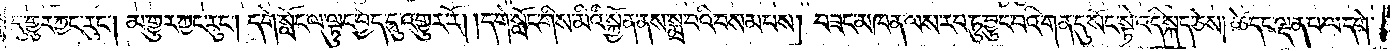དུ་གྱུར་ཀྱང་རུང༌། མ་གྱུར་ཀྱང་རུང༌། དགེ་སློང་ལ་ལྟུང་བྱེད་དུ་འགྱུར་རོ། །དགེ་སློང་གིས་མིའི་སྐྱོན་ནས་སྨྲ་བའི་བསམ་པས། བཟང་མཁན་ལས་རབ་ཏུ་བྱུང་བའི་གན་དུ་སོང་སྟེ་འདི་སྐད་ཅེས། ཚེ་དང་ལྡན་པ་ལ་དགེ་
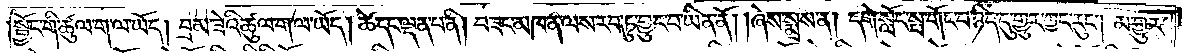སྦྱོང་གི་ཚུལ་ག་ལ་ཡོད། བྲམ་ཟེའི་ཚུལ་ག་ལ་ཡོད། ཚེ་དང་ལྡན་པ་ནི། བཟང་མཁན་ལས་རབ་ཏུ་བྱུང་བ་ཡིན་ནོ། །ཞེས་སྨྲས་ན། དགེ་སློང་སྤ་གོང་བ་ཉིད་དུ་གྱུར་ཀྱང་རུང༌། མ་གྱུར་
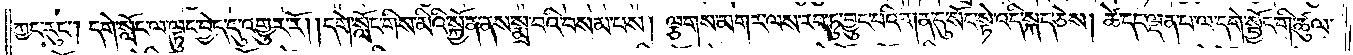ཀྱང་རུང༌། དགེ་སློང་ལ་ལྟུང་བྱེད་དུ་འགྱུར་རོ། །དགེ་སློང་གིས་མིའི་སྐྱོན་ནས་སྨྲ་བའི་བསམ་པས། ལྕགས་མགར་ལས་རབ་ཏུ་བྱུང་བའི་གན་དུ་སོང་སྟེ་འདི་སྐད་ཅེས། ཚེ་དང་ལྡན་པ་ལ་དགེ་སྦྱོང་གི་ཚུལ་
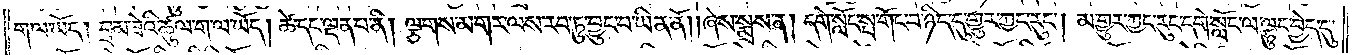ག་ལ་ཡོད། བྲམ་ཟེའི་ཚུལ་ག་ལ་ཡོད། ཚེ་དང་ལྡན་པ་ནི། ལྕགས་མགར་ལས་རབ་ཏུ་བྱུང་བ་ཡིན་ནོ། །ཞེས་སྨྲས་ན། དགེ་སློང་སྤ་གོང་བ་ཉིད་དུ་གྱུར་ཀྱང་རུང༌། མ་གྱུར་ཀྱང་རུང་དགེ་སློང་ལ་ལྟུང་བྱེད་དུ་
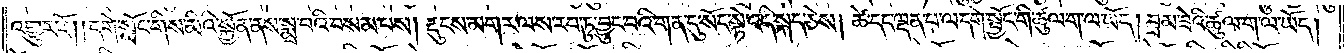འགྱུར་རོ། །དགེ་སློང་གིས་མིའི་སྐྱོན་ནས་སྨྲ་བའི་བསམ་པས། རྡུངས་མགར་ལས་རབ་ཏུ་བྱུང་བའི་གན་དུ་སོང་སྟེ་འདི་སྐད་ཅེས། ཚེ་དང་ལྡན་པ་ལ་དགེ་སྦྱོང་གི་ཚུལ་ག་ལ་ཡོད། བྲམ་ཟེའི་ཚུལ་ག་ལ་ཡོད།
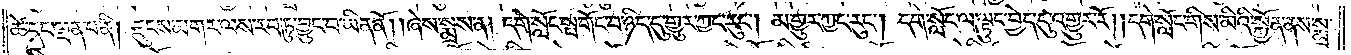ཚེ་དང་ལྡན་པ་ནི། རྡུངས་མགར་ལས་རབ་ཏུ་བྱུང་བ་ཡིན་ནོ། །ཞེས་སྨྲས་ན། དགེ་སློང་སྤ་གོང་བ་ཉིད་དུ་གྱུར་ཀྱང་རུང༌། མ་གྱུར་ཀྱང་རུང༌། དགེ་སློང་ལ་ལྟུང་བྱེད་དུ་འགྱུར་རོ། །དགེ་སློང་གིས་མིའི་སྐྱོན་ནས་སྨྲ་
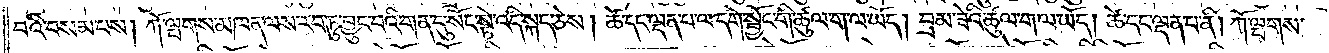བའི་བསམ་པས། ཀོ་ལྤགས་མཁན་ལས་རབ་ཏུ་བྱུང་བའི་གན་དུ་སོང་སྟེ་འདི་སྐད་ཅེས། ཚེ་དང་ལྡན་པ་ལ་དགེ་སྦྱོང་གི་ཚུལ་ག་ལ་ཡོད། བྲམ་ཟེའི་ཚུལ་ག་ལ་ཡོད། ཚེ་དང་ལྡན་པ་ནི། ཀོ་ལྤགས་
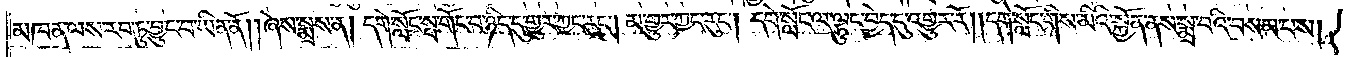མཁན་ལས་རབ་ཏུ་བྱུང་བ་ཡིན་ནོ། །ཞེས་སྨྲས་ན། དགེ་སློང་སྤ་གོང་བ་ཉིད་དུ་གྱུར་ཀྱང་རུང༌། མ་གྱུར་ཀྱང་རུང༌། དགེ་སློང་ལ་ལྟུང་བྱེད་དུ་འགྱུར་རོ། །དགེ་སློང་གིས་མིའི་སྐྱོན་ནས་སྨྲ་བའི་བསམ་པས།
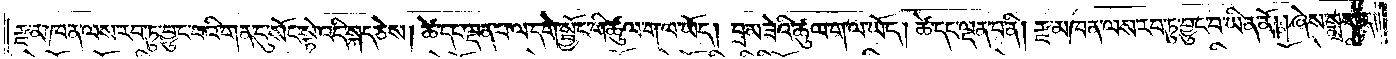རྫ་མཁན་ལས་རབ་ཏུ་བྱུང་བའི་གན་དུ་སོང་སྟེ་འདི་སྐད་ཅེས། ཚེ་དང་ལྡན་པ་ལ་དགེ་སྦྱོང་གི་ཚུལ་ག་ལ་ཡོད། བྲམ་ཟེའི་ཚུལ་ག་ལ་ཡོད། ཚེ་དང་ལྡན་པ་ནི། རྫ་མཁན་ལས་རབ་ཏུ་བྱུང་བ་ཡིན་ནོ། །ཞེས་སྨྲས་ན།
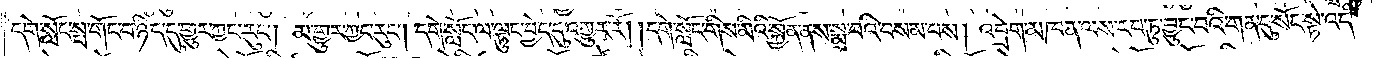དགེ་སློང་སྤ་གོང་བ་ཉིད་དུ་གྱུར་ཀྱང་རུང༌། མ་གྱུར་ཀྱང་རུང༌། དགེ་སློང་ལ་ལྟུང་བྱེད་དུ་འགྱུར་རོ། །དགེ་སློང་གིས་མིའི་སྐྱོན་ནས་སྨྲ་བའི་བསམ་པས། འབྲེག་མཁན་ལས་རབ་ཏུ་བྱུང་བའི་གན་དུ་སོང་སྟེ་འདི་
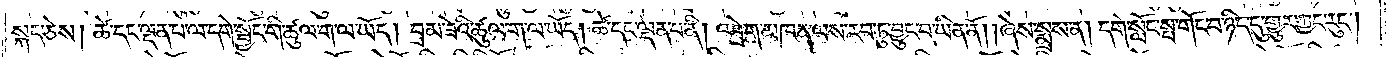སྐད་ཅེས། ཚེ་དང་ལྡན་པ་ལ་དགེ་སྦྱོང་གི་ཚུལ་ག་ལ་ཡོད། བྲམ་ཟེའི་ཚུལ་ག་ལ་ཡོད། ཚེ་དང་ལྡན་པ་ནི། འབྲེག་མཁན་ལས་རབ་ཏུ་བྱུང་བ་ཡིན་ནོ། །ཞེས་སྨྲས་ན། དགེ་སློང་སྤ་གོང་བ་ཉིད་དུ་གྱུར་ཀྱང་རུང༌།
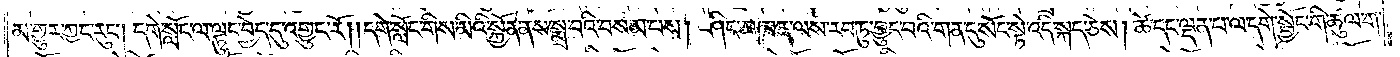མ་གྱུར་ཀྱང་རུང༌། དགེ་སློང་ལ་ལྟུང་བྱེད་དུ་འགྱུར་རོ། །དགེ་སློང་གིས་མིའི་སྐྱོན་ནས་སྨྲ་བའི་བསམ་པས། ཤིང་མཁན་ལས་རབ་ཏུ་བྱུང་བའི་གན་དུ་སོང་སྟེ་འདི་སྐད་ཅེས། ཚེ་དང་ལྡན་པ་ལ་དགེ་སྦྱོང་གི་ཚུལ་ག་
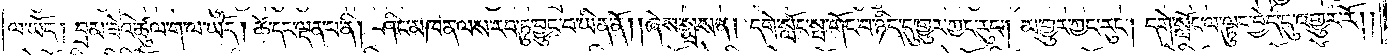ལ་ཡོད། བྲམ་ཟེའི་ཚུལ་ག་ལ་ཡོད། ཚེ་དང་ལྡན་པ་ནི། ཤིང་མཁན་ལས་རབ་ཏུ་བྱུང་བ་ཡིན་ནོ། །ཞེས་སྨྲས་ན། དགེ་སློང་སྤ་གོང་བ་ཉིད་དུ་གྱུར་ཀྱང་རུང༌། མ་གྱུར་ཀྱང་རུང༌། དགེ་སློང་ལ་ལྟུང་བྱེད་དུ་འགྱུར་རོ། །
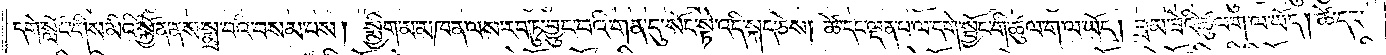དགེ་སློང་གིས་མིའི་སྐྱོན་ནས་སྨྲ་བའི་བསམ་པས། སྨྱིག་མ་མཁན་ལས་རབ་ཏུ་བྱུང་བའི་གན་དུ་སོང་སྟེ་འདི་སྐད་ཅེས། ཚེ་དང་ལྡན་པ་ལ་དགེ་སྦྱོང་གི་ཚུལ་ག་ལ་ཡོད། བྲམ་ཟེའི་ཚུལ་ག་ལ་ཡོད། ཚེ་དང་
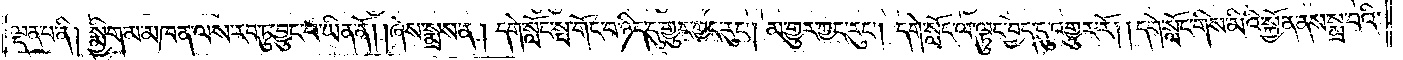ལྡན་པ་ནི། སྨྱིག་མ་མཁན་ལས་རབ་ཏུ་བྱུང་བ་ཡིན་ནོ། །ཞེས་སྨྲས་ན། དགེ་སློང་སྤ་གོང་བ་ཉིད་དུ་གྱུར་ཀྱང་རུང༌། མ་གྱུར་ཀྱང་རུང༌། དགེ་སློང་ལ་ལྟུང་བྱེད་དུ་འགྱུར་རོ། །དགེ་སློང་གིས་མིའི་སྐྱོན་ནས་སྨྲ་བའི་
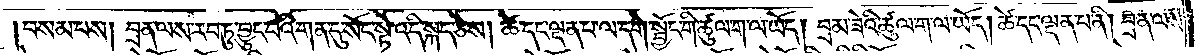བསམ་པས། བྲན་ལས་རབ་ཏུ་བྱུང་བའི་གན་དུ་སོང་སྟེ་འདི་སྐད་ཅེས། ཚེ་དང་ལྡན་པ་ལ་དགེ་སྦྱོང་གི་ཚུལ་ག་ལ་ཡོད། བྲམ་ཟེའི་ཚུལ་ག་ལ་ཡོད། ཚེ་དང་ལྡན་པ་ནི། བྲན་ལས་
